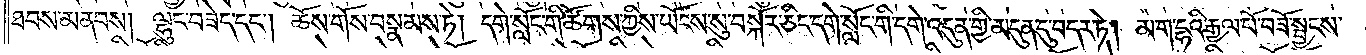ཐབས་མནབས། ལྷུང་བཟེད་དང༌། ཆོས་གོས་བསྣམས་ཏེ། དགེ་སློང་གི་ཚོགས་ཀྱིས་ཡོང་སུ་བསྐོར་ཅིང་དགེ་སློང་གི་དགེ་འདུན་གྱི་མདུན་དུ་བདར་ཏེ། མ་ག་དྷའི་རྒྱལ་པོ་བཟོ་སྦྱངས་
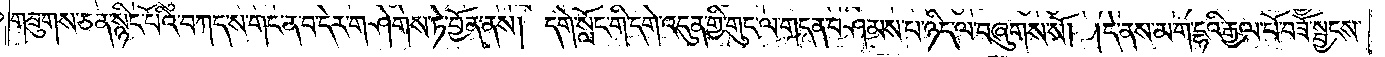གཟུགས་ཅན་སྙིང་པོའི་བཀད་ས་གང་ན་བ་དེར་གཤེགས་ཏེ་བྱོན་ནས། དགེ་སློང་གི་དགེ་འདུན་གྱི་གུང་ལ་གདན་བཤམས་པ་ཉིད་ལ་བཞུགས་སོ། །དེ་ནས་མ་ག་དྷའི་རྒྱལ་པོ་བཟོ་སྦྱངས་
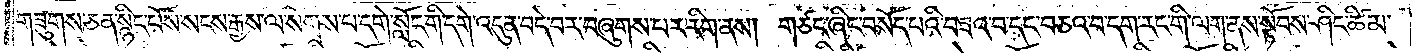གཟུགས་ཅན་སྙིང་པོས་སངས་རྒྱས་ལ་སོགས་པ་དགེ་སློང་གི་དགེ་འདུན་བདེ་བར་བཞུགས་པར་རིག་ནས། གཙང་ཞིང་བསོད་པའི་བཟའ་བ་དང་བཅའ་བ་དག་རང་གི་ལག་ནས་སྟོབས་ཤིང་ཚིམ་
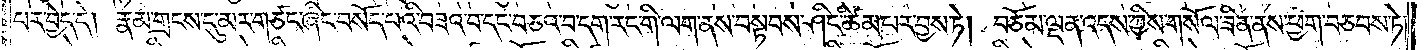པར་བྱེད་དེ། རྣམ་གྲངས་དུ་མར་གཙང་ཞིང་བསོད་པའི་བཟའ་བ་དང་བཅའ་བ་དག་རང་གི་ལག་ནས་བསྟབས་ཤིང་ཚིམ་པར་བྱས་ཏེ། བཅོམ་ལྡན་འདས་ཀྱིས་གསོལ་ཟིན་ནས་ཕྱག་བཅབས་ཏེ།
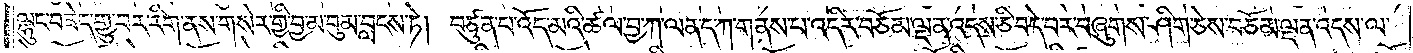ལྷུང་བཟེད་གྱུ་བར་རིག་ནས་གསེར་གྱི་བྱ་མ་བུམ་བླངས་ཏེ། བཙུན་པ་འོད་མའི་ཚལ་བྱ་ཀ་ལན་ད་ཀ་གནས་པ་འདིར་བཅོམ་ལྡན་འདས་ཅི་བདེ་བར་བཞུགས་ཤིག་ཅེས་བཅོམ་ལྡན་འདས་ལ་
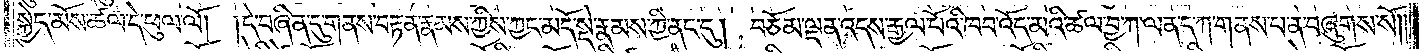སྐྱེད་མོས་ཚལ་དེ་ཕུལ་ལོ། །དེ་བཞིན་དུ་གནས་བརྟན་རྣམས་ཀྱིས་ཀྱང་མདོ་སྡེ་རྣམས་ཀྱི་ནང་དུ། བཅོམ་ལྡན་འདས་རྒྱལ་པོའི་ཁབ་འོད་མའི་ཚལ་བྱ་ཀ་ལན་ད་ཀ་གནས་པ་ན་བཞུགས་སོ༎
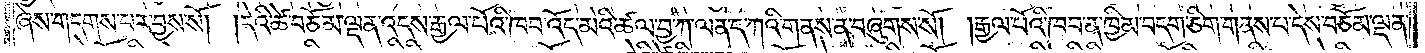ཞེས་གདགས་པར་བྱས་སོ། །དེའི་ཚེ་བཅོམ་ལྡན་འདས་རྒྱལ་པོའི་ཁབ་འོད་མའི་ཚལ་བྱ་ཀ་ལན་ད་ཀའི་གནས་ན་བཞུགས་སོ། །རྒྱལ་པོའི་ཁབ་ན་ཁྱིམ་བདག་ཅིག་གནས་པ་དེས་བཅོམ་ལྡན་
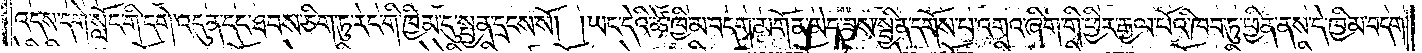འདས་དགེ་སློང་གི་དགེ་འདུན་དང་ཐབས་ཅིག་ཏུ་རང་གི་ཁྱིམ་དུ་སྤྱན་དྲངས་སོ། །ཡང་དེའི་ཚེ་ཁྱིམ་བདག་མགོན་མེད་ཟས་སྦྱིན་དགོས་པ་འགའ་ཞིག་གི་ཕྱིར་རྒྱལ་པོའི་ཁབ་ཏུ་ཕྱིན་ནས་དེ་ཁྱིམ་བདག་
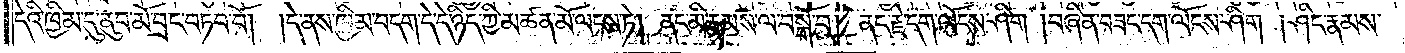དེའི་ཁྱིམ་དུ་ནུབ་མོ་བྲང་བཏབ་བོ། །དེ་ནས་ཁྱིམ་བདག་དེ་དེ་ཉིད་ཀྱི་མཚན་མོ་ལངས་ཏེ། ནང་མི་རྣམས་ལ་བསྒོ་བ། ནང་རྗེ་དག་ལོངས་ཤིག །བཞིན་བཟང་དག་ལོངས་ཤིག །ཤིང་རྣམས་
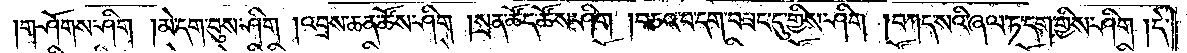།གཤོགས་ཤིག །མེ་དག་བུས་ཤིག །འབྲས་ཆན་ཚོས་ཤིག །སྲན་ཚོད་ཚོས་ཤིག །བཅའ་བ་དག་བཟང་དུ་གྱིས་ཤིག །བཀད་སའི་ཞལ་ཏ་དག་གྱིས་ཤིག །དེ་
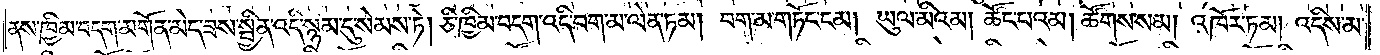ནས་ཁྱིམ་བདག་མགོན་མེད་ཟས་སྦྱིན་འདི་སྙམ་དུ་སེམས་ཏེ། ཅི་ཁྱིམ་བདག་འདི་བག་མ་ལེན་ཏམ། བག་མ་གཏོང་ངམ། ཡུལ་མིའམ། ཚོང་པའམ། ཚོགས་སམ། འཁོར་ཏམ། འདིས་མ་
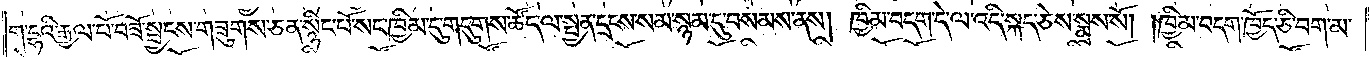ག་དྷའི་རྒྱལ་པོ་བཟོ་སྦྱངས་གཟུགས་ཅན་སྙིང་པོ་སང་ཁྱིམ་དུ་གདུགས་ཚོད་ལ་སྤྱན་དྲངས་སམ་སྙམ་དུ་བསམས་ནས། ཁྱིམ་བདག་དེ་ལ་འདི་སྐད་ཅེས་སྨྲས་སོ། །ཁྱིམ་བདག་ཁྱོད་ཅི་བག་མ་
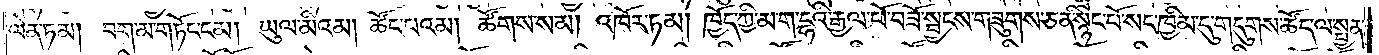ལེན་ཏམ། བག་མ་གཏོང་ངམ། ཡུལ་མིའམ། ཚོང་པའམ། ཚོགས་སམ། འཁོར་ཏམ། ཁྱོད་ཀྱི་མ་ག་དྷའི་རྒྱལ་པོ་བཟོ་སྦྱངས་གཟུགས་ཅན་སྙིང་པོ་སང་ཁྱིམ་དུ་གདུགས་ཚོད་ལ་སྤྱན་
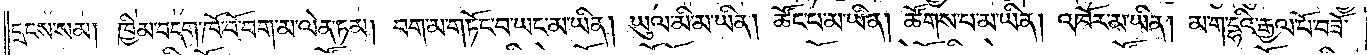དྲངས་སམ། ཁྱིམ་བདག་ཁོ་བོ་བག་མ་ལེན་ཏམ། བག་མ་གཏོང་བ་ཡང་མ་ཡིན། ཡུལ་མི་མ་ཡིན། ཚོང་པ་མ་ཡིན། ཚོགས་པ་མ་ཡིན། འཁོར་མ་ཡིན། མ་ག་དྷའི་རྒྱལ་པོ་བཟོ་
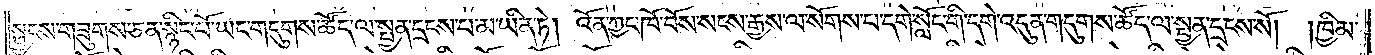སྦྱངས་གཟུགས་ཅན་སྙིང་པོ་ཡང་གདུགས་ཚོད་ལ་སྤྱན་དྲངས་པ་མ་ཡིན་ཏེ། འོན་ཀྱང་ཁོ་བོས་སངས་རྒྱས་ལ་སོགས་པ་དགེ་སློང་གི་དགེ་འདུན་གདུགས་ཚོད་ལ་སྤྱན་དྲངས་སོ། །ཁྱིམ་
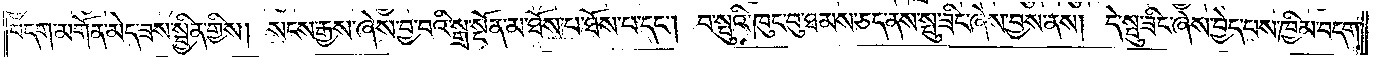བདག་མགོན་མེད་ཟས་སྦྱིན་གྱིས། སངས་རྒྱས་ཞེས་བྱ་བའི་སྒྲ་སྔོན་མ་ཐོས་པ་ཐོས་པ་དང༌། བ་སྤུའི་ཁུང་བུ་ཐམས་ཅད་ནས་སྤུ་ཟིང་ཞེས་བྱས་ནས། དེ་སྤུ་ཟིང་ཞེས་བྱེད་པས་ཁྱིམ་བདག་
